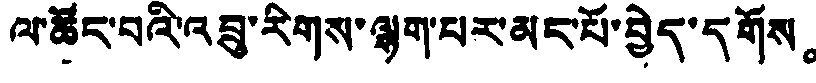ལ་ཚོང་བའི་འབྲུ་རིགས་ལྷག་པར་མང་པོ་བྱེད་དགོས。
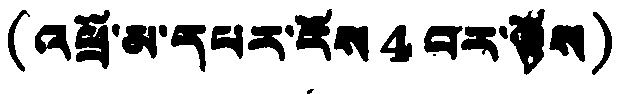(འཕྲོ་མ་དཔར་ངོས 4 བར་ལྟོས)
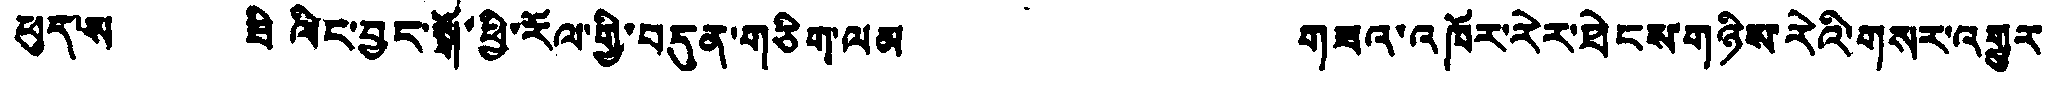ཕུད་ས ཟི ལིང་བྱང་སྒོ་ཕྱི་རོལ་གྱི་བདུན་གཅིག་ལམ གཟའ་འཁོར་རེར་ཐེངས་གཉིས་རེའི་གསར་འགྱུར
